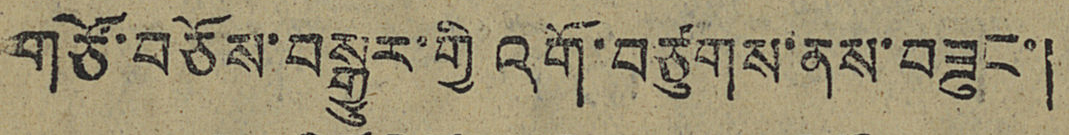གཙོ་བཅོས་བསྒྱུར་གྱི འགོ་བཙུགས་ནས་བཟུང་།
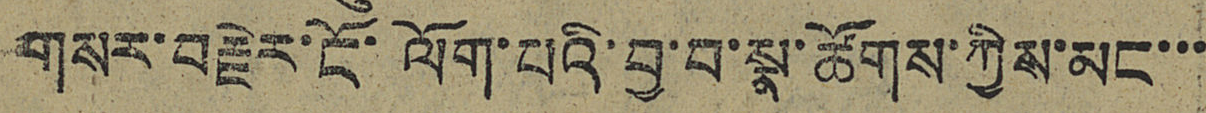གསར་བརྗེར་ངོ་ལོག་པའི་བྱ་བ་སྣ་ཚོགས་ཀྱིས་མང་་་
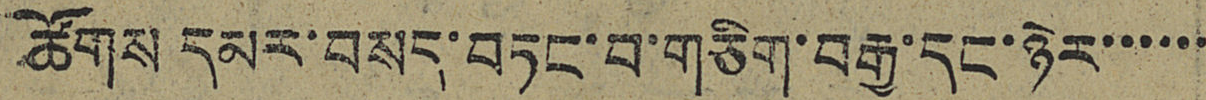ཚོགས དམར་བསད་བཏང་བ་གཅིག་བརྒྱ་དང་ཉེར་་་་་་
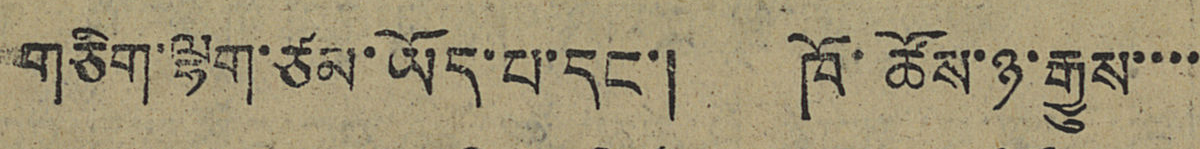གཅིག་ལྷག་ཙམ་ཡོད་པ་དང་། ཁོ་ཚོས་ཉ་རྒྱུས་་་་
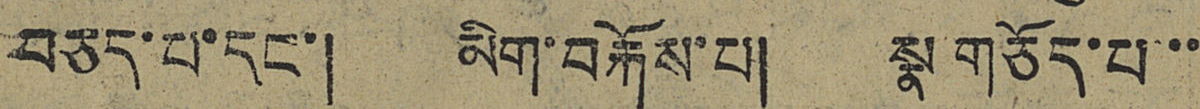བཅད་པ་དང་། མིག་བསྐོས་པ། སྣ གཅོད་པ་་་
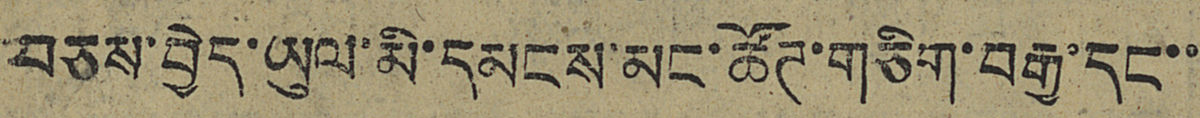བཅས་བྱེད་ཡུལ་མི་དམངས་མང་ཚོཊ་གཅིག་བརྒྱ་དང་་
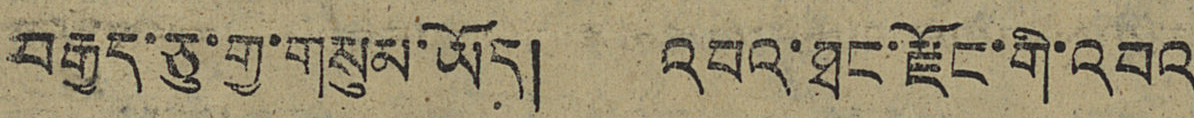བརྒྱད་ཅུ་གྱ་གསུམ་ཡོད། འབའ་ཐང་རྫོང་གི་འབའ
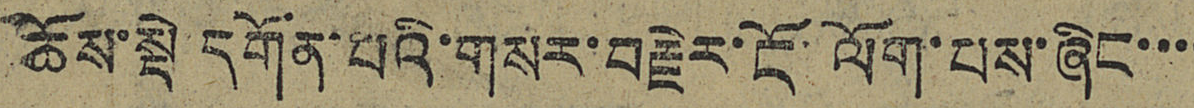ཆོས་སྡེ དགོན་པའི་གསར་བརྗེར་ངོ་ལོག་པས་ཞིང་་་་
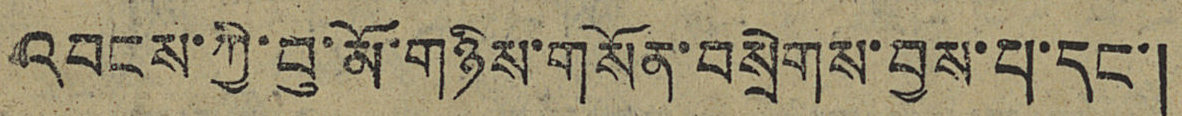འབངས་ཀྱི་བུ་མོ་གཉིས་གསོན་བསྲེགས་བྱས་པ་དང་།
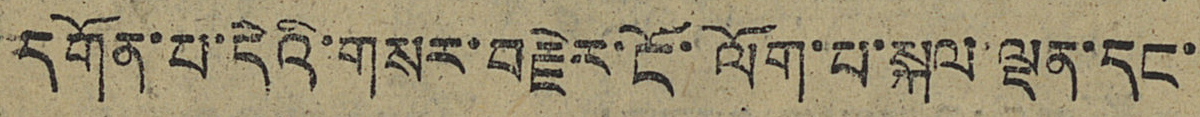དགོན་པ་དེའི་གསར་བརྗེར་ངོ་ལོག་པ་སྐལ་ལྡན་དང་
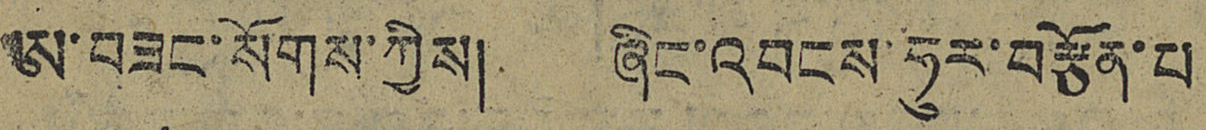ཨ་བཟང་སོགས་ཀྱིས། ཞིག་འབངས་ཧུར་བརྩོན་པ
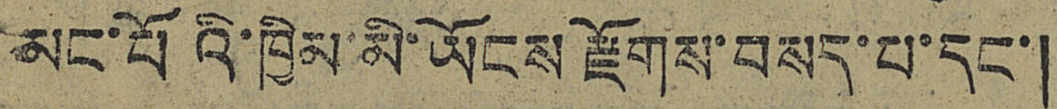མང་པོའི་ཁྱིམ་མི་ཡོངས་རྫོགས་བསད་པ་དང་།
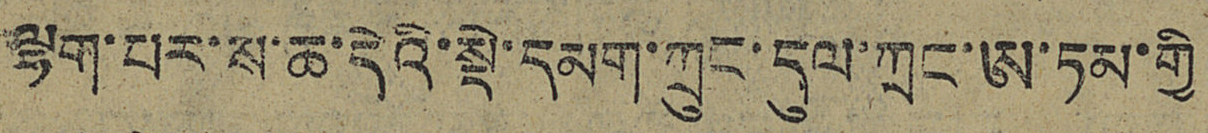ལྷག་པར་ས་ཆ་དེའི་སྡེ་དམག་ཀྲུང་དུལ་ཀྲང་ཨ་ཏམ་གྱི
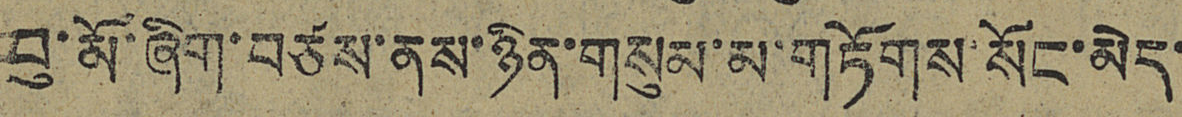བུ་མོ་ཞིག་བཙས་ནས་ཉིན་གསུམ་མ་གཏོགས་སོང་མེད་
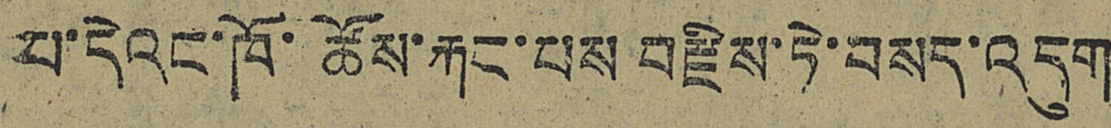པ་དེའང་ཁོ་ཚོས་རྐང་པས་བརྫིས་ཏེ་བསད་འདུག
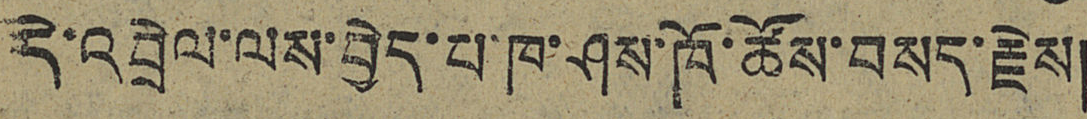དེ་འབྲེལ་ལས་བྱེད་པ་ཁ་ཤས་ཁོ་ཚོས་བསད་རྗེས།
